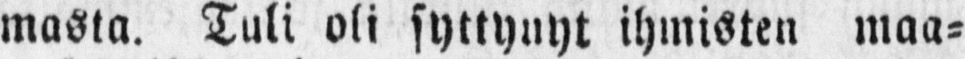masta. Tali oli syttynyt ihmisten maa-
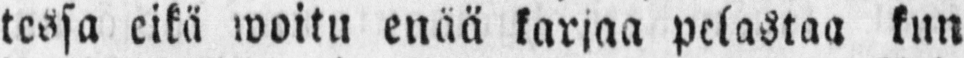tessa eikä woitu enää karjaa pelastaa kun
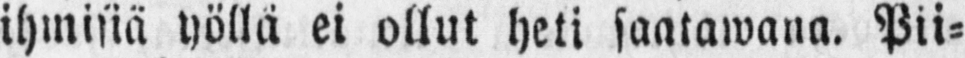ihmisiä yöllä ei ollut heti saatawana. Pii-
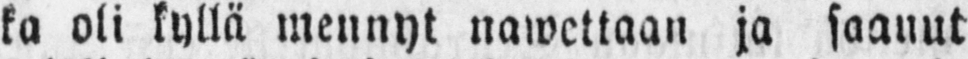ka oli kyllä mennyt nawettaan ja saanut
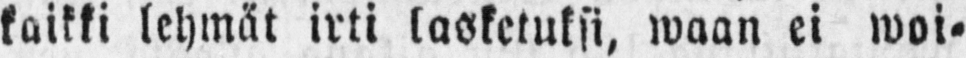kaikki lehmät irti lasketuksi, waan ei woi-
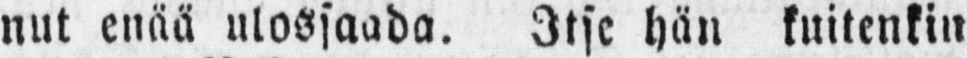nut enää ulossaada. Itse hän kuitenkin
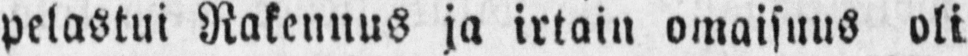pelastui Rakennus ja irtain omaisuus oli
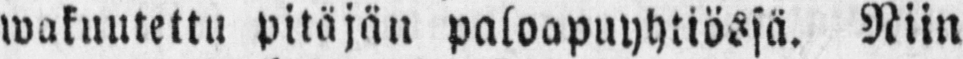wakuutettu pitäjän paloapuyhtiössä. Niin
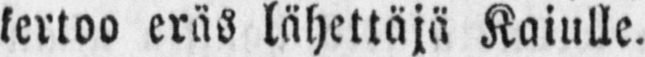kertoo eräs lähettäjä Kaiulle.
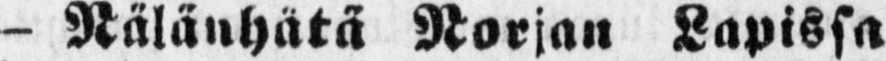- Nälänhätä Norjan Lapissa
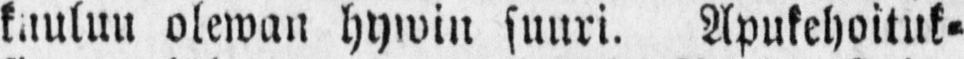kuuluu olewan hywin suuri. Apukehoituk-
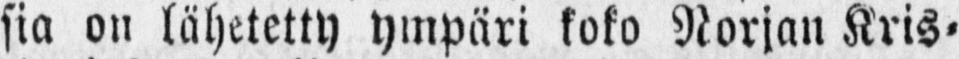siä on lähetetty ympäri koko Norjan Kris-
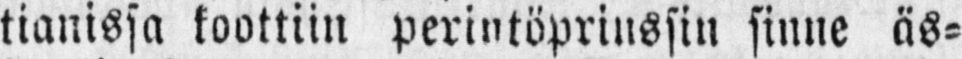tianissa koottiin perintöprinssin sinne äs-
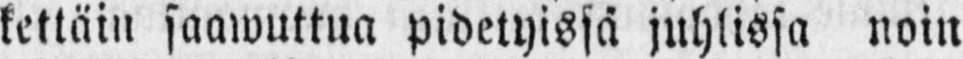kettäin saawuttua pidetyissä juhlissa noin
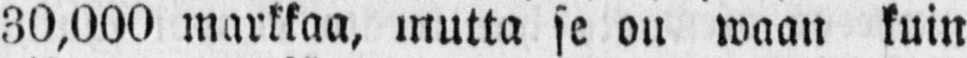30,000 markkaa, mutta se on waan kuin
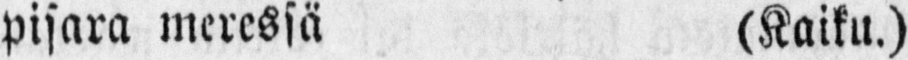pisara meressä (Kaiku.)
